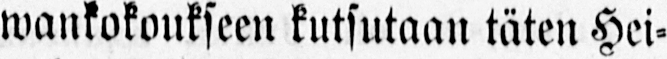wankokoukseen kutsutaan täten Hei-
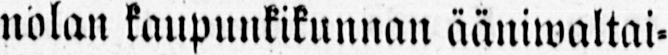nolan kaupunkikunnan ääniwaltai-
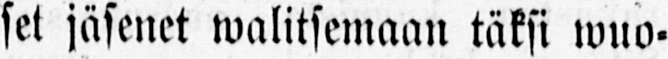set jäsenet walitsemaan täksi wuo-
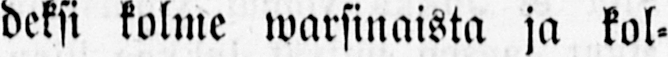deksi kolme warsinaista ja kol-
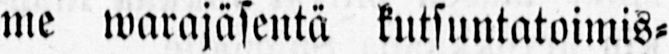me warajäsentä kutsuntatoimis-
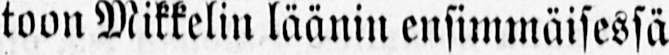toon Mikkelin läänin ensimmäisessä
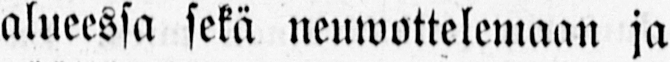alueessa sekä neuwottelemaan ja
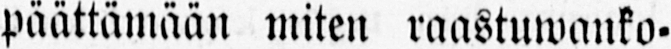päättämään miten raastuwanko-
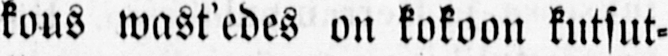kous wast'edes on kokoon kutsut-
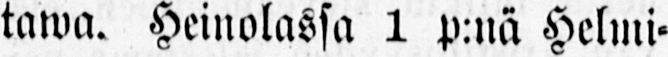tawa. Heinolassa 1 p:nä Helmi-
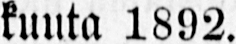kuuta 1892.
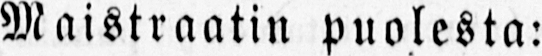Maistraatin puolesta:
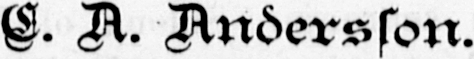E. A. Andersson.
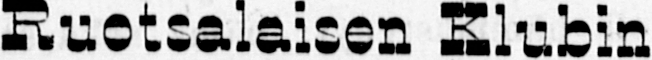Ruotsalaisen Klubin
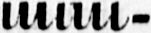Programmi-
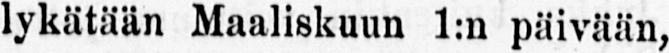lykätään Maaliskuun 1:n päivään,
